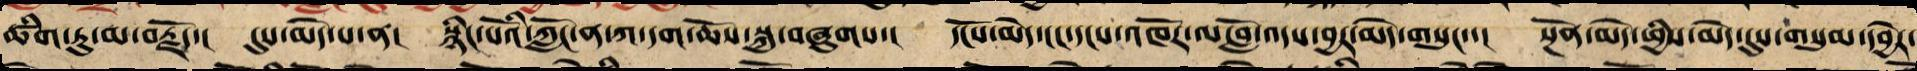ཚིག་ཏུ་མ་བརྗོད། དུས་མེད་པ་ན་། སྙིང་པོའི་ཀློང་ན་ཀ་དག་ཆོས་སྐུ་བཞུགས་། དངོས་མེད་ངང་དངས་འཁོར་ལ་བློ་འདས་བྱར་མེད་གསུང་། སྔོན་མེད་ཕྱིས་མེད་དུས་གསུམ་དབྱེར་
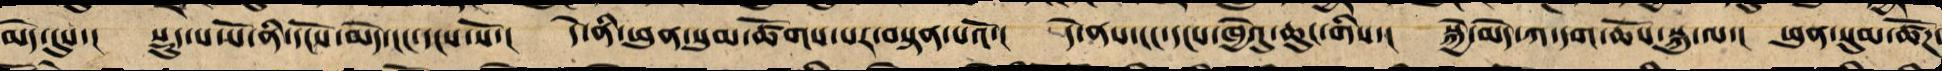མེད་དུས་། སྡུད་པ་པོ་ནི་དངོས་མེད་ངང་དངས་སོ་། དེ་ནི་ཕུན་སུམ་ཚོགས་པར་བསྟན་པའོ་། དེ་ནས་ངང་དྭངས་ཁྱེའུ་ཆུང་གིས་། སྐྱེ་མེད་ཀ་དག་ཆོས་སྐུ་ལ་། ཕུན་སུམ་ཚོཌ་
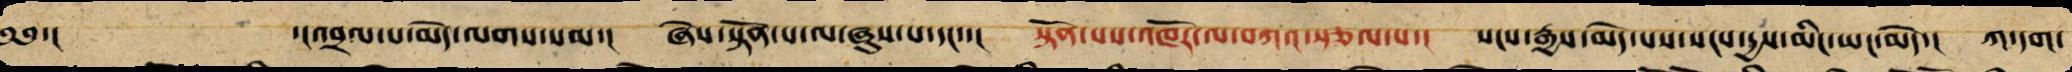༄༅་། ་།འབྲལ་བ་མེད་ལགས་སམ་། ཞེས་སྟོན་པ་ལ་ཞུས་པ་དང་་། སྟོན་པས་འཁོར་ལ་བཀའ་སྩལ་པ་། སངས་རྒྱས་མེད་པས་སངས་རྒྱས་མིང་ཡང་མེད་། ཀ་དག་
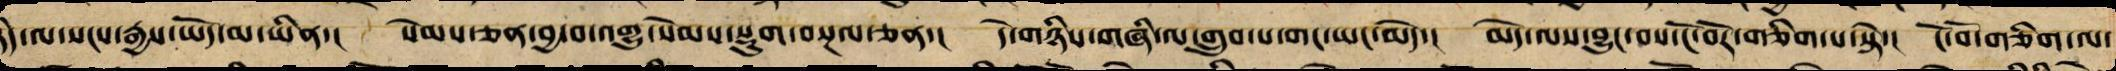ཉིད་ལ་སངས་རྒྱས་ཡོད་མ་ཡིན་། སེམས་ཅན་བྱ་བ་འགྱུ་སེམས་སྡུག་བསྔལ་ཅན་། དེ་གཉིས་གཞི་ལ་གྲུབ་པ་གང་ཡང་མེད་། མེད་ལས་བྱུང་བས་ངོ་བོར་གཅིག་པ་སྟེ་། ངོ་བོ་གཅིག་ལ་
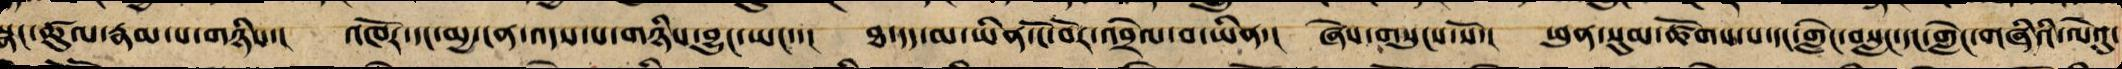སྣང་ཚུལ་རྣམ་པ་གཉིས་། འཁོར་དང་མྱ་ངན་འདས་པ་གཉིས་བྱུང་ཡང་་། ཐ་དད་མ་ཡིན་ངོ་བོར་འབྲེལ་པ་ཡིན་། ཞེས་གསུངས་སོ་། ཕུན་སུམ་ཚོགས་པ་དང་གླེང་བསླང་དང་གླེང་གཞིའི་ལེའུ་
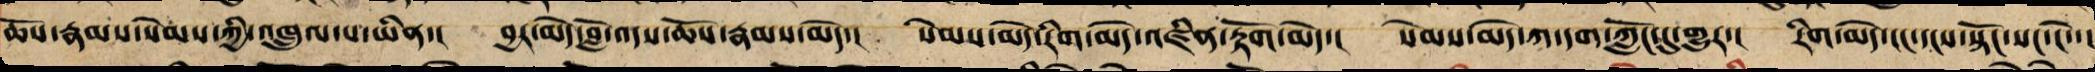ཆོས་རྣམས་སེམས་ཀྱི་འཁྲུལ་པ་ཡིན་། བྱར་མེད་བློ་འདས་ཆོས་རྣམས་མེད་། སེམས་མེད་རིག་མེད་འཛིན་རྟོག་མེད་། སེམས་མེད་ཀ་དག་ཀློང་དུ་གྱུར་། རིག་མེད་ངང་དངས་སྟོང་སང་ངོ་་།
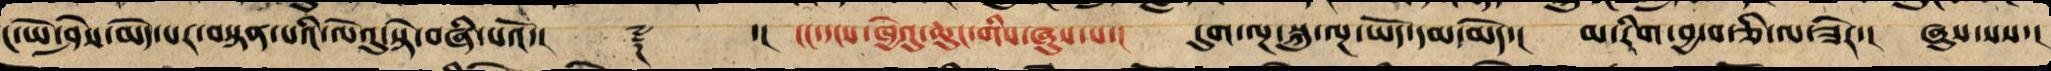ང་ཡེ་ཤེས་མེད་པར་བསྟན་པའི་ལེའུ་སྟེ་བཞི་པའོ་།། ༈ ་།། ངང་དངས་ཁྱེའུ་ཆུང་གིས་ཞུས་པ་། དུག་ལྔ་སྐུ་ལྔ་ཡོད་དམ་མེད་། མ་རིག་བྱ་བ་ཅི་ལ་ཟེར་། ཞུས་པས་།
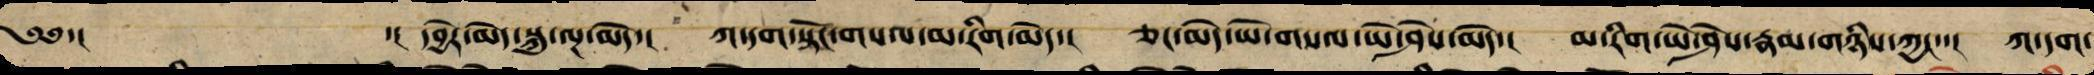༄༅་། ་། དབྱེར་མེད་སྐུ་ལྔ་མེད་། ཀ་དག་སྟོང་གསལ་མ་རིག་མེད་། ཅང་མེད་ཡེ་གསལ་ཡེ་ཤེས་མེད་། མ་རིག་ཡེ་ཤེས་རྣམ་གཉིས་ཀྱང་་། ཀ་དག་
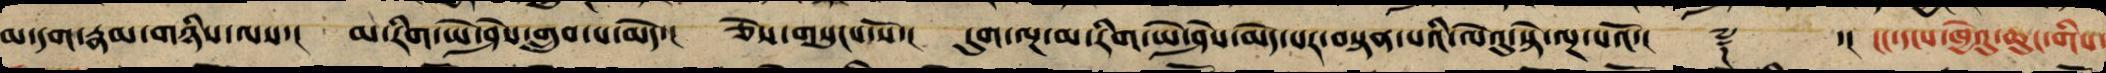མ་དག་རྣམ་གཉིས་ལས་། མ་རིག་ཡེ་ཤེས་གྲུབ་པ་མེད་། ཅེས་གསུངས་སོ་། དུག་ལྔ་མ་རིག་ཡེ་ཤེས་མེད་པར་བསྟན་པའི་ལེའུ་སྟེ་ལྔ་པའོ་།། ༈ ་།། ངང་དངས་ཁྱེའུ་ཆུང་གིས་
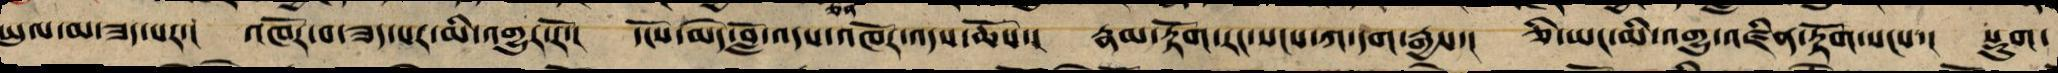ཡུལ་མ་ཟད་པར་། འཁོར་བ་ཟད་པར་མི་འགྱུར་རོ་། དངོས་མེད་བློ་འདས་འཁོར་འདས་ཆོས་། རྣམ་རྟོག་རང་སངས་ཀ་དག་རྒྱས་། ཅི་ཡང་མི་འགྱུར་འཛིན་རྟོག་སངས་། སྡུག་
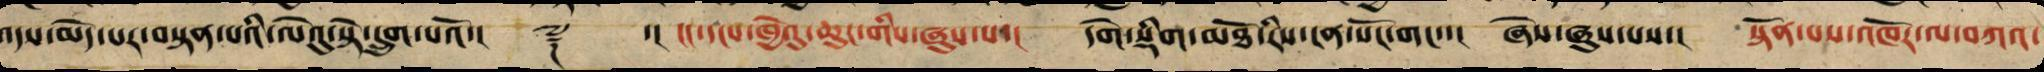འདས་མེད་པར་བསྟན་པའི་ལེའུ་སྟེ་དྲུག་པའོ་།། ༈ ་། ངང་དངས་ཁྱེའུ་ཆུང་གིས་ཞུས་པ་། དགེ་སྡིག་མཐོ་རིས་ངན་སོང་གང་་། ཞེས་ཞུས་པས་། སྟོན་པས་འཁོར་ལ་བཀའ་
